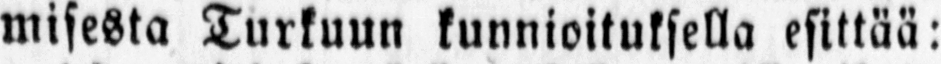misesta Turkuun kunnioituksella esittää:
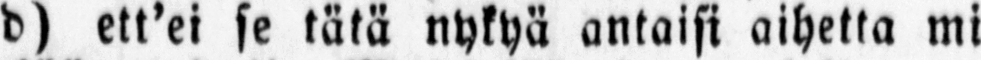d) ett'ei se tätä nykyä antaisi aihetta mi-
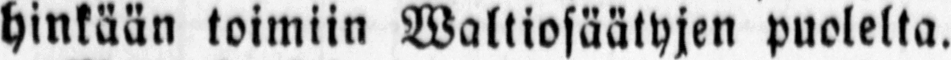hinkään toimiin Waltiosäätyjen puolelta.
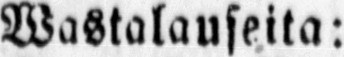Wastalauseita:
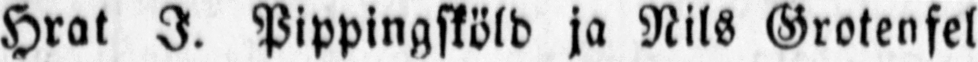Hrat I. Pippingsköld ja Nils Grotenfelt
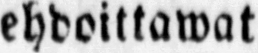ehdoittawat
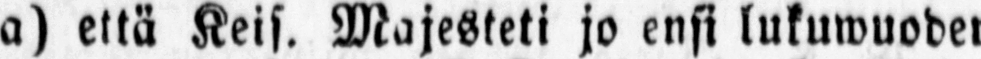a) että Keis. Majesteti jo ensi lukuwuoden
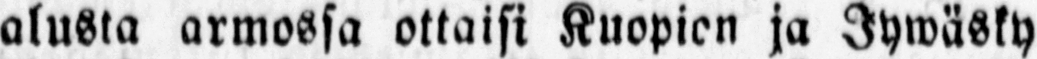alusta armossa ottaisi Kuopion ja Jywäsky-
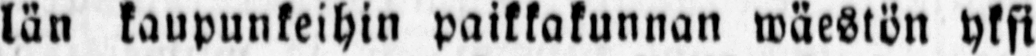län kaupunkeihin paikkakunnan wäestön yksi-
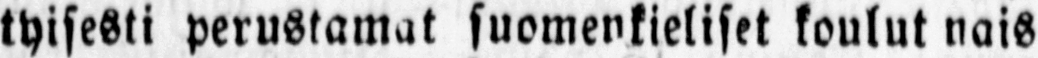tyisesti perustamat suomenkieliset koulut nais-
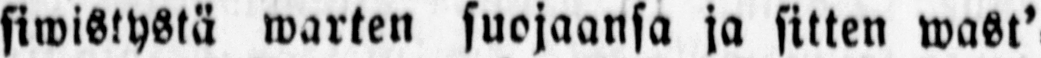siwistystä warten suojaansa ja sitten wast'-
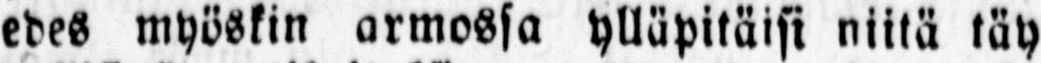edes myöskin armossa ylläpitäisi niitä täy-
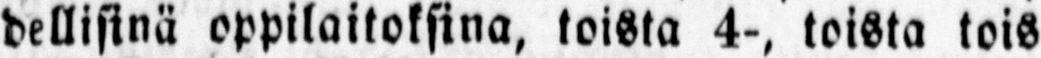dellisinä oppilaitoksina, toista 4-, toista tois-
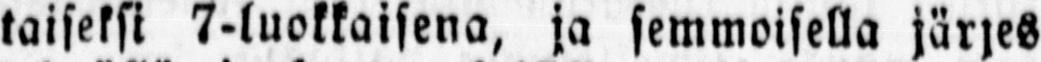taiseksi 7-luokkaisena, ja semmoisella järjes-
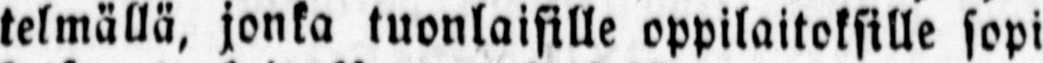telmällä, jonka tuonlaisille oppilaitoksille sopii
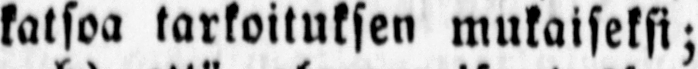katsoa tarkoituksen mukaiseksi;
